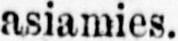asiamies.
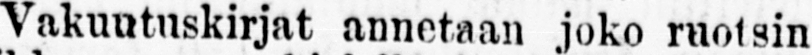Vakuutuskirjat annetaan joko ruotsin
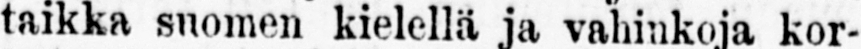taikka suomen kielellä ja vahinkoja kor-
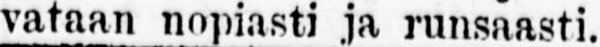vataan nopiasti ja runsaasti.
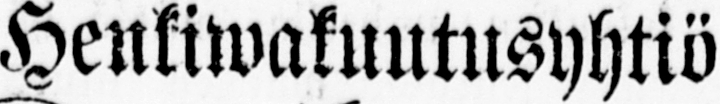Henkiwakuntltsyhtiö
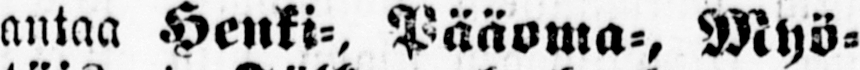antaa Henki-, Pääoma-, Myö-
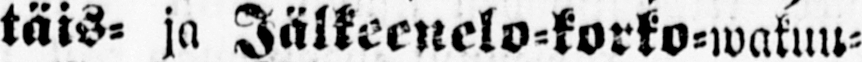täis- ja Jälkeenelo-korko-wakuu-
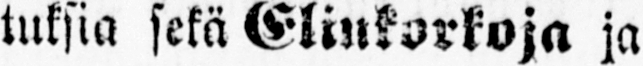tuksia sekä Elinkorkoja ja
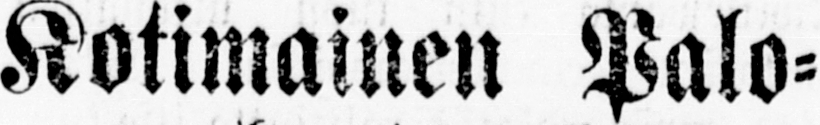Kotimainen Palo-
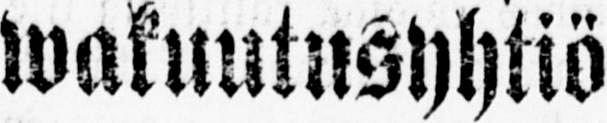wakuutusyhtiö
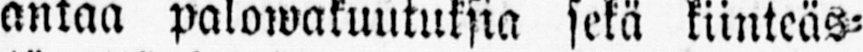antaa palowatuutuksia sekä kiinteäs-
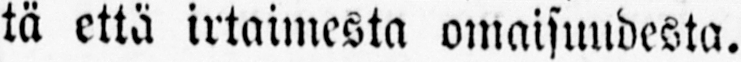tä että irtaimesta omaisuudesta.
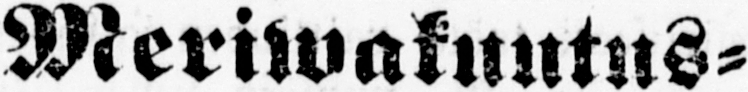Meriwakuutus-
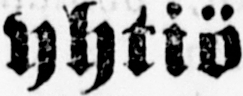Yhtiö
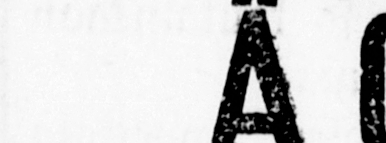ÄGIR
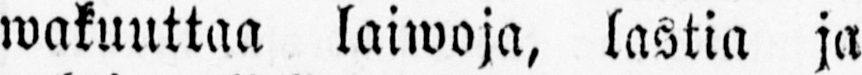wakuuttaa kaiwoja, lastia ja
